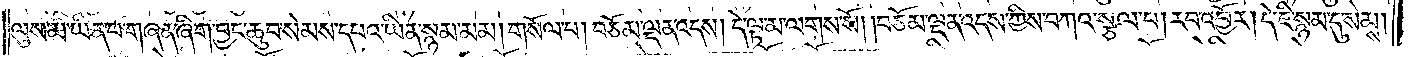ལུས་མ་ཡིན་པ་གཞན་ཞིག་བྱང་ཆུབ་སེམས་དཔའ་ཡིན་སྙམ་མམ། གསོལ་པ། བཅོམ་ལྡན་འདས། དེ་ལྟ་མ་ལགས་སོ། །བཅོམ་ལྡན་འདས་ཀྱིས་བཀའ་སྩལ་པ། རབ་འབྱོར། དེ་ཇི་སྙམ་དུ་སེམས།
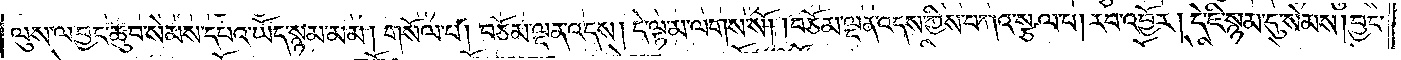ལུས་ལ་བྱང་ཆུབ་སེམས་དཔའ་ཡོད་སྙམ་མམ། གསོལ་པ། བཅོམ་ལྡན་འདས། དེ་ལྟ་མ་ལགས་སོ། །བཅོམ་ལྡན་འདས་ཀྱིས་བཀའ་སྩལ་པ། རབ་འབྱོར། དེ་ཇི་སྙམ་དུ་སེམས། བྱང་
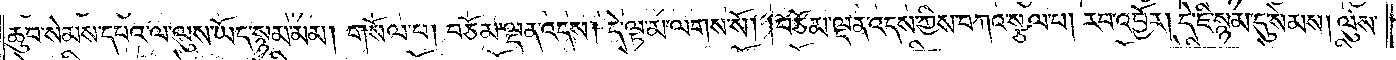ཆུབ་སེམས་དཔའ་ལ་ལུས་ཡོད་སྙམ་མམ། གསོལ་པ། བཅོམ་ལྡན་འདས། དེ་ལྟ་མ་ལགས་སོ། །བཅོམ་ལྡན་འདས་ཀྱིས་བཀའ་སྩལ་པ། རབ་འབྱོར། དེ་ཇི་སྙམ་དུ་སེམས། ལུས་
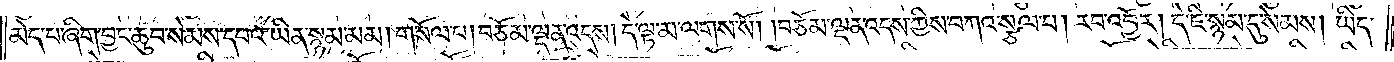མེད་པ་ཞིག་བྱང་ཆུབ་སེམས་དཔའ་ཡིན་སྙམ་མམ། གསོལ་པ། བཅོམ་ལྡན་འདས། དེ་ལྟ་མ་ལགས་སོ། །བཅོམ་ལྡན་འདས་ཀྱིས་བཀའ་སྩལ་པ། རབ་འབྱོར། དེ་ཇི་སྙམ་དུ་སེམས། ཡིད་
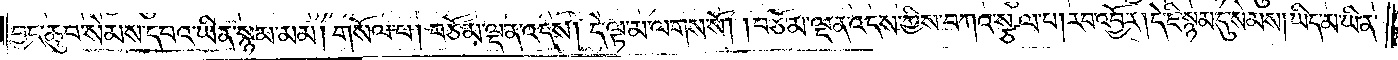བྱང་ཆུབ་སེམས་དཔའ་ཡིན་སྙམ་མམ། གསོལ་པ། བཅོམ་ལྡན་འདས། དེ་ལྟ་མ་ལགས་སོ། །བཅོམ་ལྡན་འདས་ཀྱིས་བཀའ་སྩལ་པ། རབ་འབྱོར། དེ་ཇི་སྙམ་དུ་སེམས། ཡིད་མ་ཡིན་
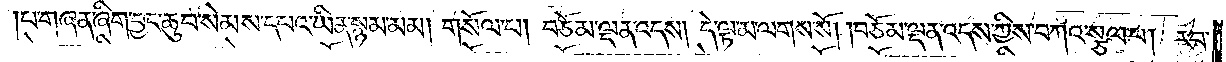པ་གཞན་ཞིག་བྱང་ཆུབ་སེམས་དཔའ་ཡིན་སྙམ་མམ། གསོལ་པ། བཅོམ་ལྡན་འདས། དེ་ལྟ་མ་ལགས་སོ། །བཅོམ་ལྡན་འདས་ཀྱིས་བཀའ་སྩལ་པ། རབ་
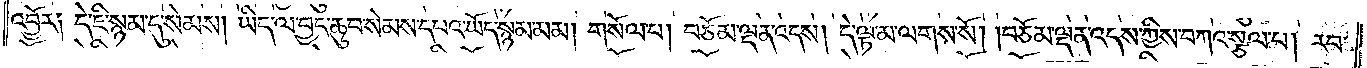འབྱོར༑ དེ་ཇི་སྙམ་དུ་སེམས། ཡིད་ལ་བྱང་ཆུབ་སེམས་དཔའ་ཡོད་སྙམ་མམ། གསོལ་པ། བཅོམ་ལྡན་འདས། དེ་ལྟ་མ་ལགས་སོ། །བཅོམ་ལྡན་འདས་ཀྱིས་བཀའ་སྩལ་པ། རབ་
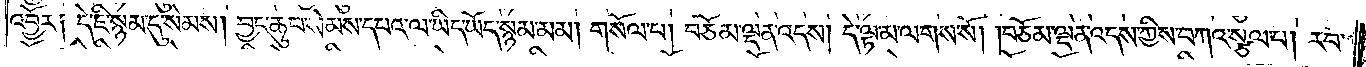འབྱོར༑ དེ་ཇི་སྙམ་དུ་སེམས། བྱང་ཆུབ་སེམས་དཔའ་ལ་ཡིད་ཡོད་སྙམ་མམ། གསོལ་པ། བཅོམ་ལྡན་འདས། དེ་ལྟ་མ་ལགས་སོ། །བཅོམ་ལྡན་འདས་ཀྱིས་བཀའ་སྩལ་པ། རབ་
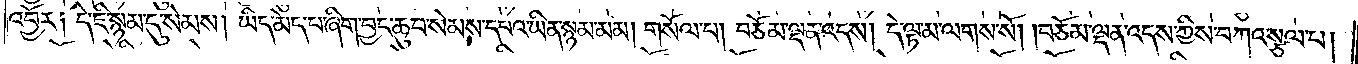འབྱོར༑ དེ་ཇི་སྙམ་དུ་སེམས། ཡིད་མེད་པ་ཞིག་བྱང་ཆུབ་སེམས་དཔའ་ཡིན་སྙམ་མམ། གསོལ་པ། བཅོམ་ལྡན་འདས། དེ་ལྟ་མ་ལགས་སོ། །བཅོམ་ལྡན་འདས་ཀྱིས་བཀའ་སྩལ་པ།
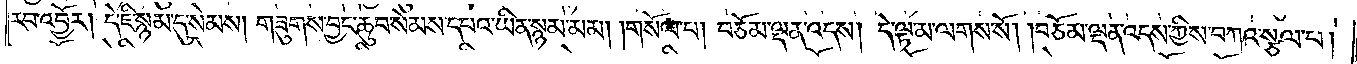རབ་འབྱོར། དེ་ཇི་སྙམ་དུ་སེམས། གཟུགས་བྱང་ཆུབ་སེམས་དཔའ་ཡིན་སྙམ་མམ། །གསོལ་པ། བཅོམ་ལྡན་འདས། དེ་ལྟ་མ་ལགས་སོ། །བཅོམ་ལྡན་འདས་ཀྱིས་བཀའ་སྩལ་པ།
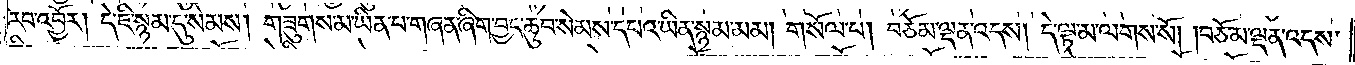རབ་འབྱོར། དེ་ཇི་སྙམ་དུ་སེམས། གཟུགས་མ་ཡིན་པ་གཞན་ཞིག་བྱང་ཆུབ་སེམས་དཔའ་ཡིན་སྙམ་མམ། གསོལ་པ། བཅོམ་ལྡན་འདས། དེ་ལྟ་མ་ལགས་སོ། །བཅོམ་ལྡན་འདས་
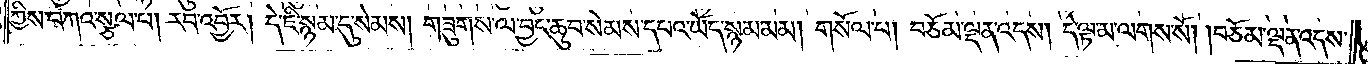ཀྱིས་བཀའ་སྩལ་པ། རབ་འབྱོར། དེ་ཇི་སྙམ་དུ་སེམས། གཟུགས་ལ་བྱང་ཆུབ་སེམས་དཔའ་ཡོད་སྙམ་མམ། གསོལ་པ། བཅོམ་ལྡན་འདས། དེ་ལྟ་མ་ལགས་སོ། །བཅོམ་ལྡན་འདས་
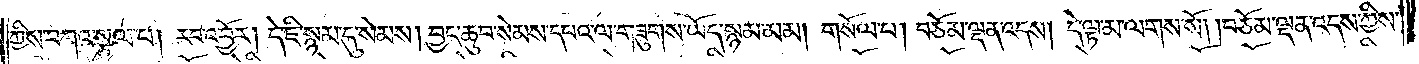ཀྱིས་བཀའ་སྩལ་པ། རབ་འབྱོར། དེ་ཇི་སྙམ་དུ་སེམས། བྱང་ཆུབ་སེམས་དཔའ་ལ་གཟུགས་ཡོད་སྙམ་མམ། གསོལ་པ། བཅོམ་ལྡན་འདས། དེ་ལྟ་མ་ལགས་སོ། །བཅོམ་ལྡན་འདས་ཀྱིས་
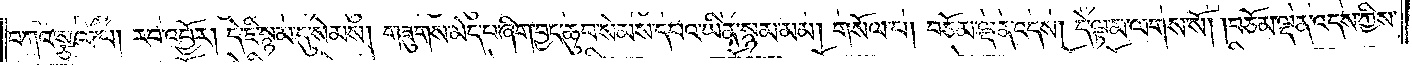བཀའ་སྩལ་པ། རབ་འབྱོར། དེ་ཇི་སྙམ་དུ་སེམས། གཟུགས་མེད་པ་ཞིག་བྱང་ཆུབ་སེམས་དཔའ་ཡིན་སྙམ་མམ། གསོལ་པ། བཅོམ་ལྡན་འདས། དེ་ལྟ་མ་ལགས་སོ། །བཅོམ་ལྡན་འདས་ཀྱིས་
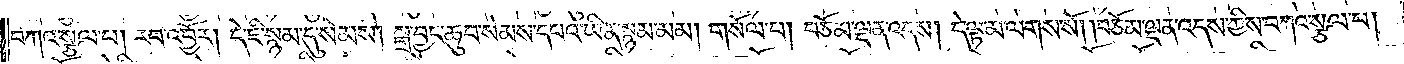བཀའ་སྩལ་པ། རབ་འབྱོར། དེ་ཇི་སྙམ་དུ་སེམས། སྒྲ་བྱང་ཆུབ་སེམས་དཔའ་ཡིན་སྙམ་མམ། གསོལ་པ། བཅོམ་ལྡན་འདས། དེ་ལྟ་མ་ལགས་སོ། །བཅོམ་ལྡན་འདས་ཀྱིས་བཀའ་སྩལ་པ།
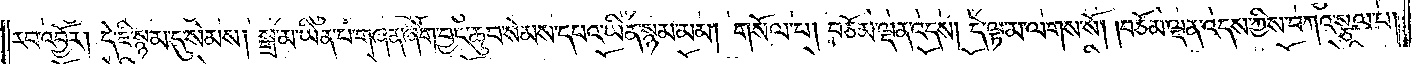རབ་འབྱོར། དེ་ཇི་སྙམ་དུ་སེམས། སྒྲ་མ་ཡིན་པ་གཞན་ཞིག་བྱང་ཆུབ་སེམས་དཔའ་ཡིན་སྙམ་མམ། གསོལ་པ། བཅོམ་ལྡན་འདས། དེ་ལྟ་མ་ལགས་སོ། །བཅོམ་ལྡན་འདས་ཀྱིས་བཀའ་སྩལ་པ།
